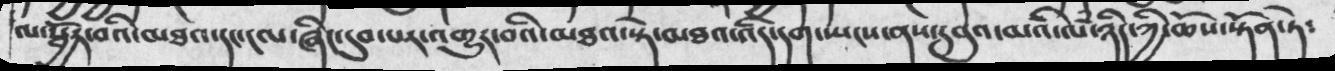ལ་སྦྱོར་བའི་མཐའ་དང་ངལ་ཞིང་དུབ་པར་འགྱུར་བའི་མཐའ་སྟེ་མཐའ་འདི་དག་སྤངས་ནས་དབུའ་མའི་ལཾ་ཉིད་ཀྱི་ཆོས་སྟོན་ཏེ༴
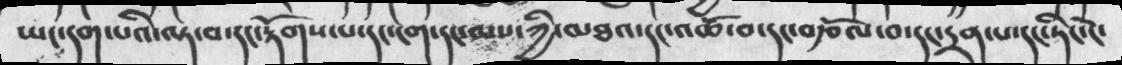ཡང་དག་པའི་ལྟ་བ་དང་རྟོགས་པ་དང་ངག་དང་ལས་ཀྱི་མཐའ་དང་འཚོ་བ་དང་བརྩོལ་བ་དང་དྲན་པ་དང་ཏིང་ངེ་
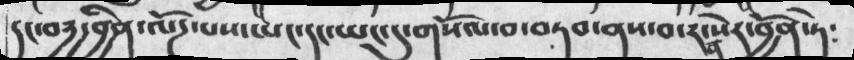དང་བདྱ་བྱིན་ལོཌ་པས་ཡང་དང་ཡང་དུ་གསོལ་བ་བཏབ་ནས་བ་རན་སེར་བྱོན་ཏེ༴
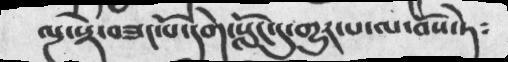ལྔ་སྟེ་བཟང་པོ་དགེ་སློང་དུ་གྱུར་པ་ལ་བོས་ཏེ༴
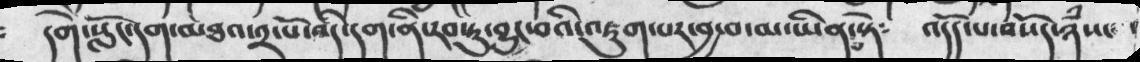དགེ་སློང་དག་མཐའ་༢་པོ་འདི་དག་ནི་རབ་ཏུ་བྱུང་བའི་འཇུག་པར་བྱ་བ་མ་ཡིན་སྟེ༴   འདོད་པ་བསོད་ཉཾས་
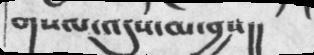གསལ་འདུས་མ་བྱས།།
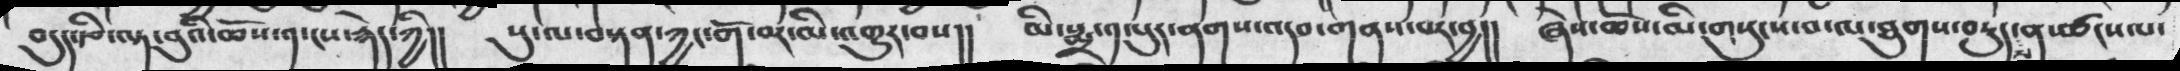བདུད་རྩི་ལྟ་བུའི་ཆོས་༡་རྙེད་ཀྱི།།  སུ་ལ་བསྟན་ཀྱང་གོ་བར་མི་འགྱུར་བས།།  མི་སྨྲ་༡་པུར་ནགས་འདབ་གནས་པར་བྱ།།  ཞེས་ཆོས་མི་གསུངས་བ་ལ་ཐུགས་བཏུད་ན་ཚངས་པ་
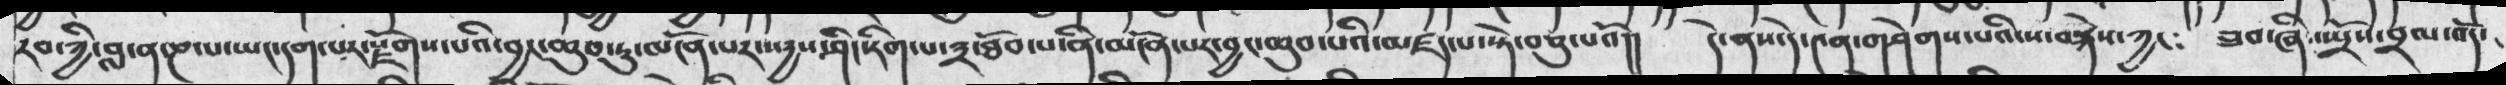རབ་ཀྱི་བླ་ན་ཎ་པ་ཡང་དག་པར་སྫོགས་པའི་བྱང་ཆུབ་ཏུ་མངོན་པར་སདྱས་ཤིང་རིག་པ་༢་ཐོག་པ་ནི་མངོན་པར་བྱང་ཆུབ་པའི་མཛད་པ་སྟེ་བཅུ་པའོ།།   དེ་ནས་དེ་༤ན་གཤེགས་པའི་ས་བསྙེས་ཀྱང༴   ཟབ་ཞི་སྤྲོས་བྲལ་འོད་
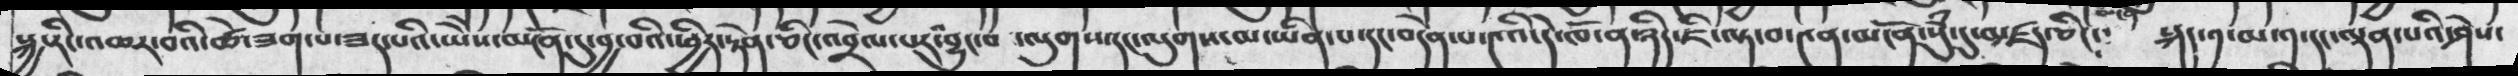སྐྱ་རིང་འཆར་བའི་ཚེ་ཟག་པ་ཟད་པའི་ཡེེས་མངོན་དུ་བྱ་བའི་ཕྱིར་རྟེན་ཅིང་འབྲེལ་པར་འབྱུང་བ་ལུགས་དང་ལུགས་མ་ཡིན་པ་དང་བདེན་པ་༤འི་དེ་ཁོ་ན་ཉིད་ཇི་ལྟ་བ་༤ན་མངོན་སུཾ་དུ་མཛད་ཅིང་༴  སྐད་༡་མ་༡་དང་ལྡན་པའི་ཤེས་
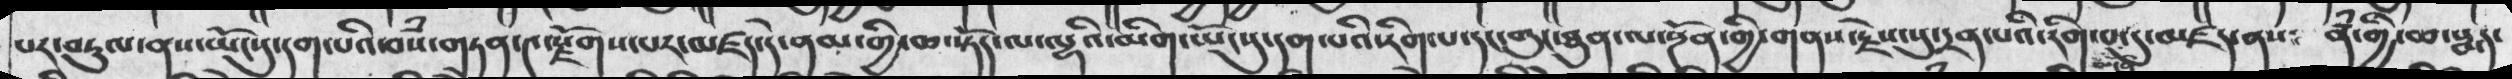པར་བཏུལ་ནས་ཡོངསུ་དག་པའི་བསཾ་གཏན་༤ན་རྫོགས་པར་མཛད་དེ་ནམ་གྱི་ཆ་སྟོད་ལ་ལྷའི་མིག་ཡོངསུ་དག་པའི་རིག་པ་དང་གུང་ཐུན་ལ་སྔོན་གྱི་གནས་རྗེས་སུ་དྲན་རིག་པ་མངོན་དུ་མཛད་ནས༴  ནཾ་གྱི་ཆ་སྨད་
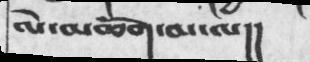ལེ་མཆོག་མ་ལ།།
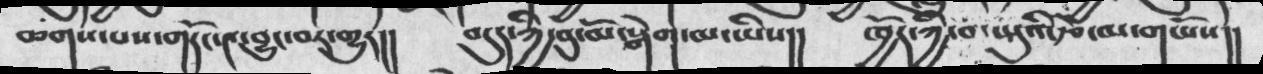ཆགས་པས་གདོང་༤་བྱུང་བར་གྱུར།།  བདུད་ཀྱི་བུ་མོ་སྒེག་མ་ཡིས།།  ཁྱོད་ཀྱི་བ་སྤུའི་རྩེ་མ་གཡོས།།
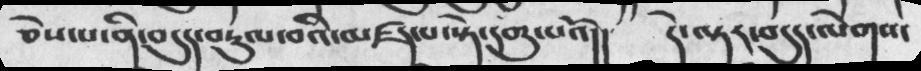ཅེས་པ་ནི་བདུད་བརྟུལ་བའི་མཛད་པ་སྟེ་དགུ་པའོ།།    དེ་ལྟར་བདུད་ལེགས་
